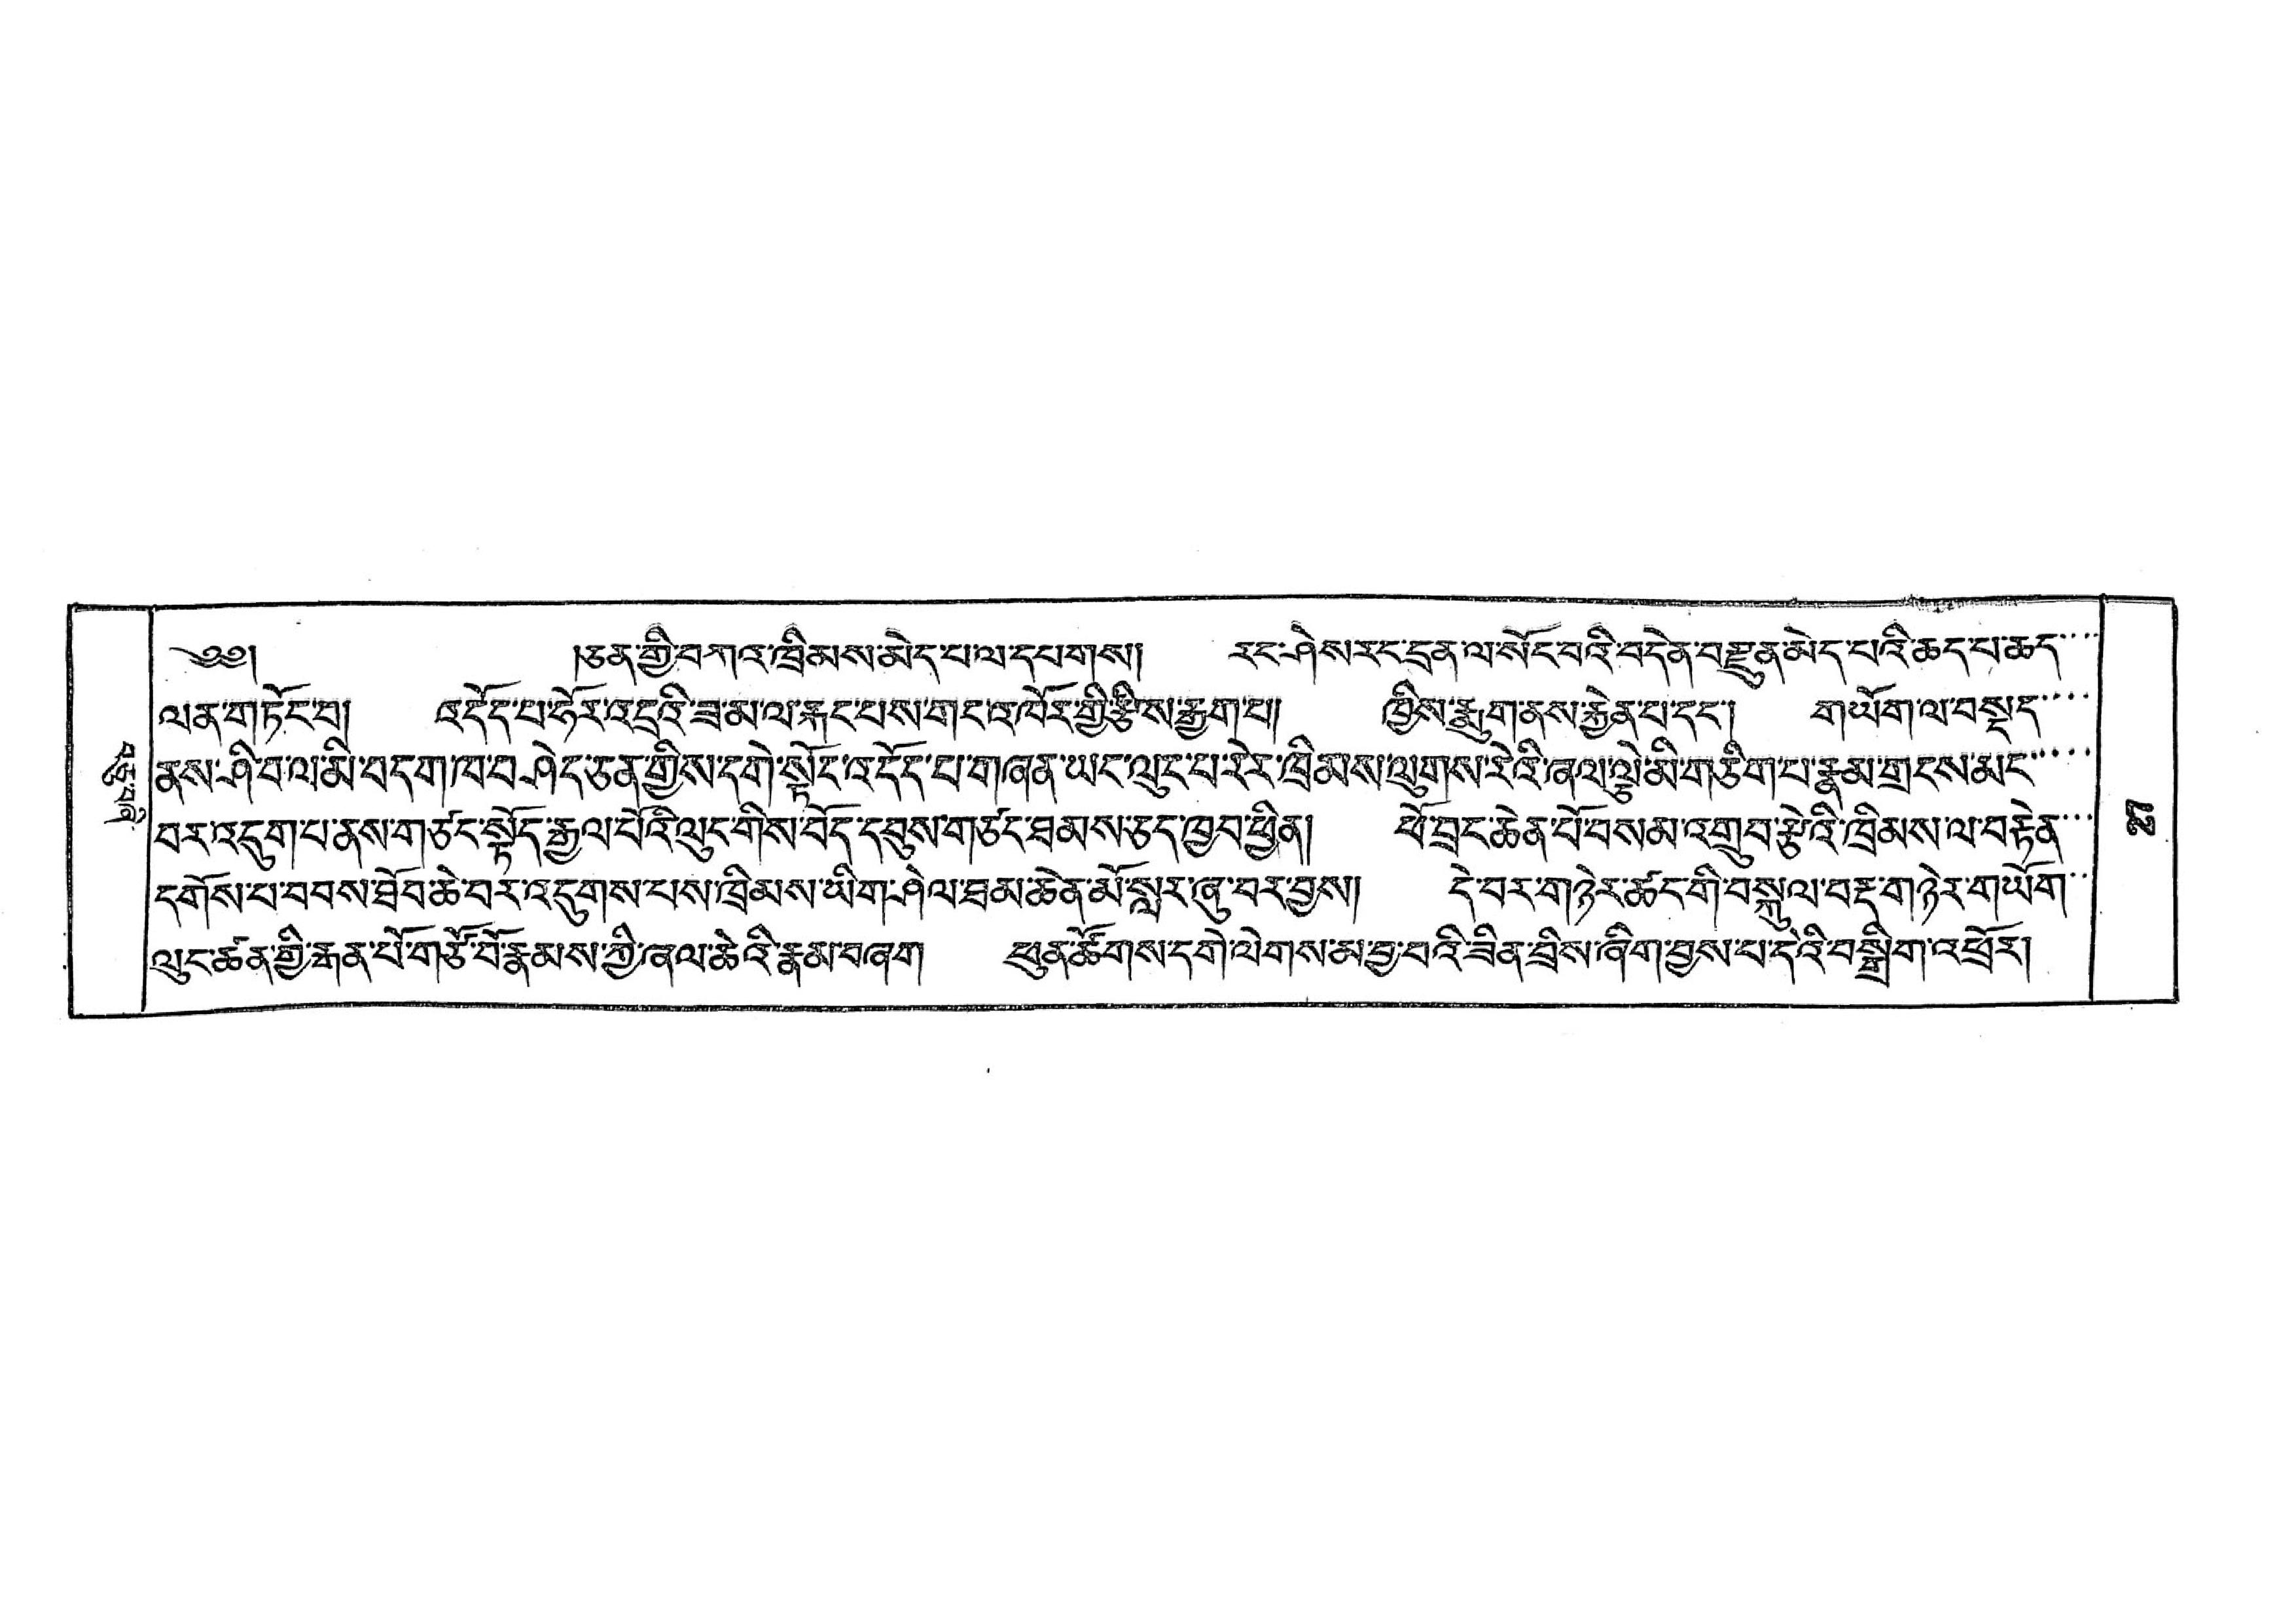བཅུ་བཞི་
༄༅། །ཅན་གྱི་བཀའ་ཁྲིམས་མེད་པ་ལ་དཔགས། རང་ཤེས་རང་དྲན་ལ་སོང་བའི་བདེན་བརྫུན་མེད་པའི་ཆད་པ་ཆད་་་
ལན་གཏོང་བ། འདོད་པ་ཧོར་འདྲའི་ཟ་མ་ལ་རྐང་པས་གང་འཁོར་གྱི་རྩིས་རྒྱག་པ། ཁྱིས་རྨུག་ནས་རྐྱེན་པ་དང་། གཡོག་ལ་བསྡད་་་
ནས་ཤི་བ་ལ་མི་བདག་ཁ་བཤེད་ཅན་གྱིས་དགེ་སྟོང་འདོད་པ་གཞན་ཡང་ལུང་པ་རེར་ཁྲིམས་ལུགས་རེའི་ཞལ་ལྕེ་མི་གཅིག་པ་རྣམ་གྲངས་མང་་་་
བར་འདུག་པ་ནས་གཙང་སྟོད་རྒྱལ་པོའི་ལུང་གིས་བོད་དབུས་གཙང་ཐམས་ཅད་ཁྱབ་ཕྱིན། ཕོ་བྲང་ཆེན་པོ་བསམ་འགྲུབ་རྩེའི་ཁྲིམས་ལ་བརྟེན་་་
དགོས་པ་བབས་ཐོབ་ཆེ་བར་འདུགས་པས་ཁྲིམས་ཡིག་ཤེལ་ཐམ་ཆེན་མོ་སླར་ཞུ་བར་བྱས། དེ་བར་གཉེར་ཚང་གི་བསྐུལ་བརྡ་གཉེར་གཡོག་་
ལུང་ཚན་གྱི་རྒན་པོ་གཙོ་བོ་རྣམས་ཀྱི་ཞལ་ཆེའི་རྣམ་བཞག ཕུན་ཚོགས་དགེ་ལེགས་མ་བྱ་བའི་ཟིན་བྲིས་ཞིག་བྱས་པ་དེའི་བསྒྲིག་འཕྲོར།
